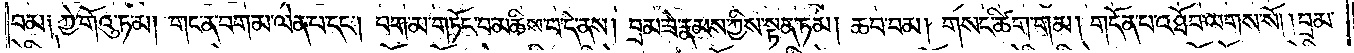བམ༏ ཀྱེ་གོའུ་ཏ་མ། གང་ན་བག་མ་ལེན་པ་དང༌། བག་མ་གཏོང་བ་མཆིས་པ་དེ་ནས། བྲམ་ཟེ་རྣམས་ཀྱིས་སྟན་ཏམ། ཆབ་བམ། གསང་ཚིག་གམ། གདོན་པ་འཐོབ་ལགས་སོ། །བྲམ་
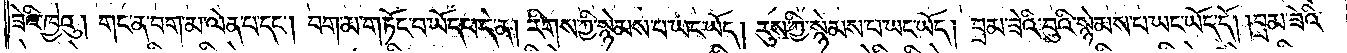ཟེའི་ཁྱེའུ། གང་ན་བག་མ་ལེན་པ་དང༌། བག་མ་གཏོང་བ་ཡོད་པ་དེ་ན། རིགས་ཀྱི་སྙེམས་པ་ཡང་ཡོད། རུས་ཀྱི་སྙེམས་པ་ཡང་ཡོད། བྲམ་ཟེའི་བུའི་སྙེམས་པ་ཡང་ཡོད་དོ། །བྲམ་ཟེའི་
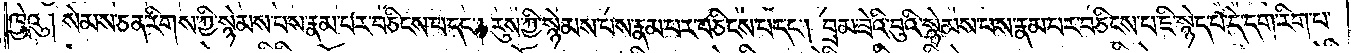ཁྱེའུ། སེམས་ཅན་རིགས་ཀྱི་སྙེམས་པས་རྣམ་པར་བཅིངས་པ་དང༌། རུས་ཀྱི་སྙེམས་པས་རྣམ་པར་བཅིངས་པ་དང༌། བྲམ་ཟེའི་བུའི་སྙེམས་པས་རྣམ་པར་བཅིངས་པ་ཇི་སྙེད་པ་དེ་དག་རིག་པ་
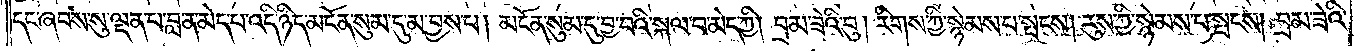དང་ཞབས་སུ་ལྡན་པ་བླ་ན་མེད་པ་འདི་ཉིད་མངོན་སུམ་དུ་མ་བྱས་པ། མངོན་སུམ་དུ་བྱ་བའི་སྐལ་བ་མེད་ཀྱི། བྲམ་ཟེའི་བུ། རིགས་ཀྱི་སྙེམས་པ་སྤངས། རུས་ཀྱི་སྙེམས་པ་སྤངས། བྲམ་ཟེའི་
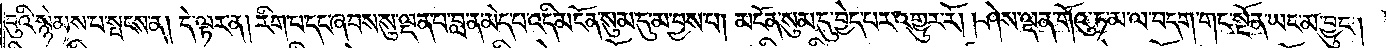བུའི་སྙེམས་པ་སྤངས་ན། དེ་ལྟར་ན། རིག་པ་དང་ཞབས་སུ་ལྡན་པ་བླ་ན་མེད་པ་འདི་མངོན་སུམ་དུ་མ་བྱས་པ། མངོན་སུམ་དུ་བྱེད་པར་འགྱུར་རོ། །ཤེས་ལྡན་གོའུ་ཏ་མ་ལ་བདག་གང་སྔོན་ཡང་མ་བྱུང༌།
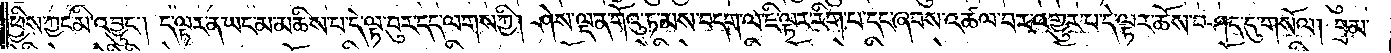ཕྱིས་ཀྱང་མི་འབྱུང༌། ད་ལྟར་ན་ཡང་མ་མཆིས་པ་དེ་ལྟ་བུར་དད་ལགས་ཀྱི། ཤེས་ལྡན་གོའུ་ཏ་མས་བདག་ལ་ཇི་ལྟར་རིག་པ་དང་ཞབས་འཚལ་བར་འགྱུར་པ་དེ་ལྟར་ཆོས་བཤད་དུ་གསོལ། བྲམ་
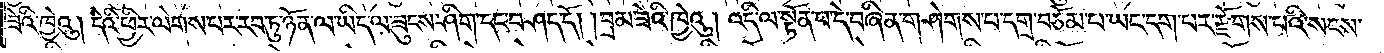ཟེའི་ཁྱེའུ། དེའི་ཕྱིར་ལེགས་པར་རབ་ཏུ་ཉོན་ལ་ཡིད་ལ་ཟུངས་ཤིག་དང་བཤད་དོ། །བྲམ་ཟེའི་ཁྱེའུ། འདི་ལ་སྟོན་པ་དེ་བཞིན་གཤེགས་པ་དགྲ་བཅོམ་པ་ཡང་དག་པར་རྫོགས་པའི་སངས་
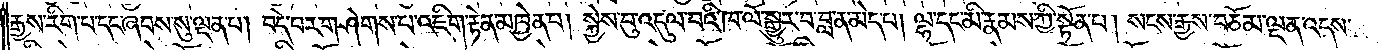རྒྱས་རིག་པ་དང་ཞབས་སུ་ལྡན་པ། བདེ་བར་གཤེགས་པ་འཇིག་རྟེན་མཁྱེན་པ། སྐྱེས་བུ་འདུལ་བའི་ཁ་ལོ་སྒྱུར་བ་བླ་ན་མེད་པ། ལྷ་དང་མི་རྣམས་ཀྱི་སྟོན་པ། སངས་རྒྱས་བཅོམ་ལྡན་འདས་
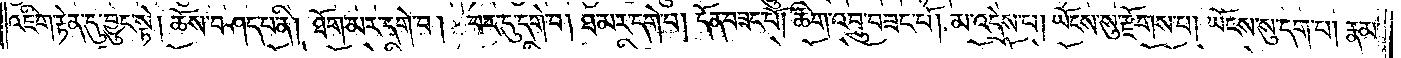འཇིག་རྟེན་དུ་བྱུང་སྟེ། ཆོས་བཤད་པ་ནི། ཐོག་མར་དགེ་བ། བར་དུ་དགེ་བ། ཐ་མར་དགེ་བ། དོན་བཟང་པོ། ཚིག་འབྲུ་བཟང་པོ། མ་འདྲེས་པ། ཡོངས་སུ་རྫོགས་པ། ཡོངས་སུ་དག་པ། རྣམ་
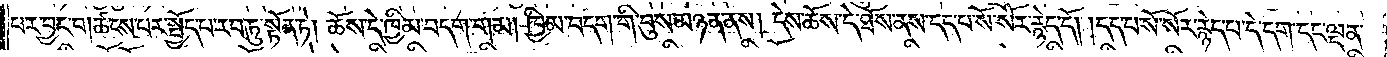པར་བྱང་བ། ཚངས་པར་སྤྱོད་པ་རབ་ཏུ་སྟོན་ཏེ། ཆོས་དེ་ཁྱིམ་བདག་གམ། ཁྱིམ་བདག་གི་བུས་མཉན་ནས། དེས་ཆོས་དེ་ཐོས་ནས་དད་པ་སོ་སོར་རྙེད་དོ། །དད་པ་སོ་སོར་རྙེད་པ་དེ་དག་དང་ལྡན་
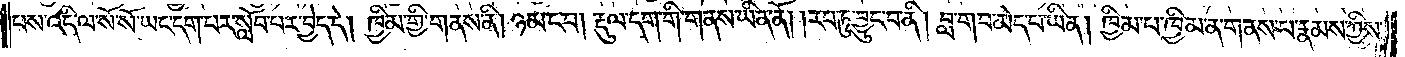པས་འདི་ལ་སོ་སོ་ཡང་དག་པར་སློབ་པར་བྱེད་དེ། ཁྱིམ་གྱི་གནས་ནི། ཉམ་ང་བ། རྡུལ་དག་གི་གནས་ཡིན་ནོ། །རབ་ཏུ་བྱུང་བ་ནི། བླ་གབ་མེད་པ་ཡིན། ཁྱིམ་པ་ཁྱིམ་ན་གནས་པ་རྣམས་ཀྱིས་
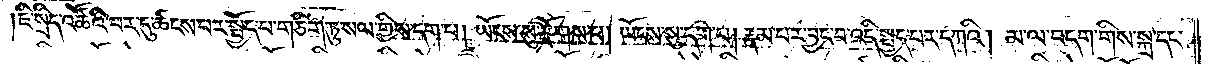ཇི་སྲིད་འཚོའི་བར་དུ་ཚངས་པར་སྤྱོད་པ་གཅིག་ཏུ་སལ་གྱིས་དག་པ། ཡོངས་སུ་རྫོགས་པ། ཡོངས་སུ་དག་པ། རྣམ་པར་བྱང་བ་འདི་སྤྱད་པར་དཀའི། མ་ལ་བདག་གིས་སྐྲ་དང་
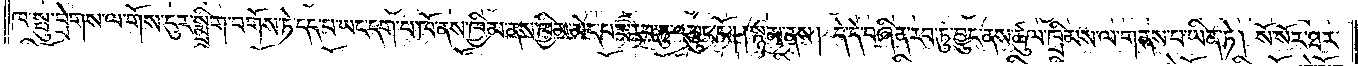ཁ་སྤུ་བྲེགས་ལ་གོས་ངུར་སྨྲིག་བགོས་ཏེ་དད་པ་ཡང་དག་པ་ཁོ་ནས་ཁྱིམ་ནས་ཁྱིམ་མེད་པར་རབ་ཏུ་འབྱུང་ངོ༌། །སྙམ་ནས། དེ་དེ་བཞིན་རབ་ཏུ་བྱུང་ནས་ཚུལ་ཁྲིམས་ལ་གནས་པ་ཡིན་ཏེ། སོ་སོར་ཐར་
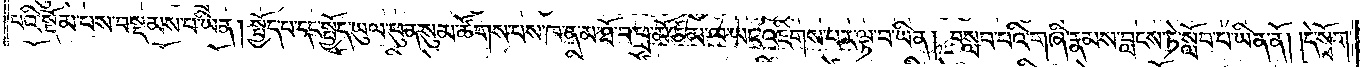པའི་སྡོམ་པས་བསྡམས་པ་ཡིན། སྤྱོད་པ་དང་སྤྱོད་ཡུལ་ཕུན་སུམ་ཚོགས་པས་ཁ་ན་མ་ཐོ་བ་ཕྲ་མོ་ཙམ་ལ་ཡང་འཇིགས་པར་ལྟ་བ་ཡིན། བསླབ་པའི་གཞི་རྣམས་བླངས་ཏེ་སློབ་པ་ཡིན་ནོ། །དེ་སྲོག་
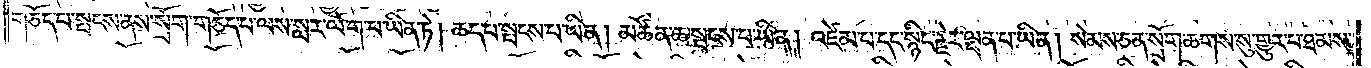གཅོད་པ་སྤངས་ནས་སྲོག་གཅོད་པ་ལས་སླར་ལོག་པ་ཡིན་ཏེ། ཆད་པ་སྤངས་པ་ཡིན། མཚོན་ཆ་སྤངས་པ་ཡིན། འཛེམ་པ་དང་སྙིང་རྗེར་ལྡན་པ་ཡིན། སེམས་ཅན་སྲོག་ཆགས་སུ་གྱུར་པ་ཐམས་
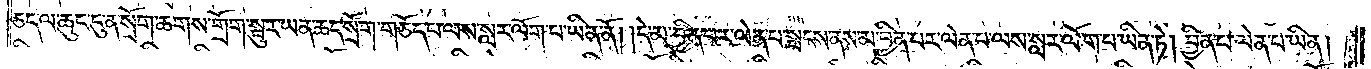ཅད་ལ་ཆུང་ངུ་ན་སྲོག་ཆགས་གྲོག་སྦུར་ཡན་ཆད་སྲོག་གཅོད་པ་ལས་སླར་ལོག་པ་ཡིན་ནོ། །དེ་མ་བྱིན་པར་ལེན་པ་སྤངས་ནས་མ་བྱིན་པར་ལེན་པ་ལས་སླར་ལོག་པ་ཡིན་ཏེ། བྱིན་པ་ལེན་པ་ཡིན།
